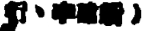行、李建新）
